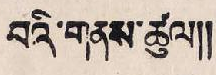པའི་གནས་ཚུལ།།
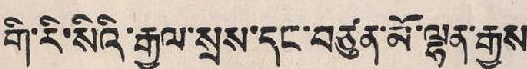གི་རི་སིའི་རྒྱལ་སྲས་དང་བཙུན་མོ་ལྷན་རྒྱས།
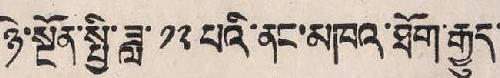ཉེ་སྔོན་སྤྱི་ཟླ་ ༡༢ པའི་ནང་མཁའ་ཐོག་རྒྱུད་
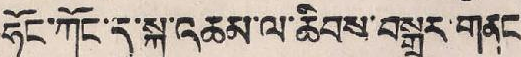ཧོང་ཀོང་དུ་སྐུ་འཆམ་ལ་ཆིབས་བསྒྱུར་གནང་
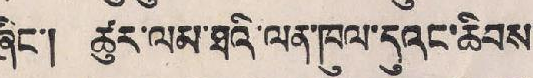ཞིང་། ཚུར་ལམ་ཐའི་ལན་ཁུལ་དུའང་ཆིབས་
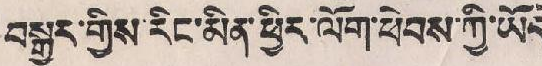བསྒྱུར་གྱིས་རིང་མིན་ཕྱིར་ལོག་ཕེབས་ཀྱི་ཡོད་
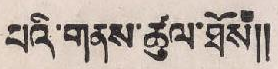པའི་གནས་ཚུལ་ཐོས།།
